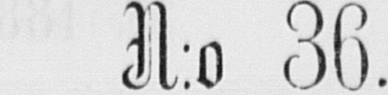N:o 36.
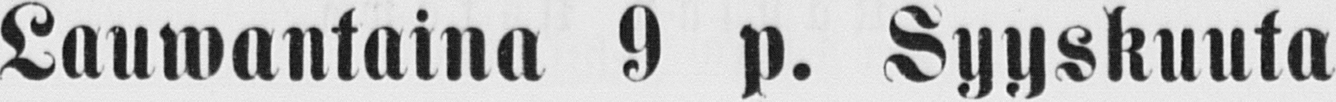Lauwantaina 9 p. Syyskuuta
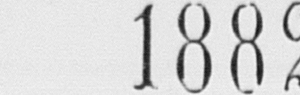1882.
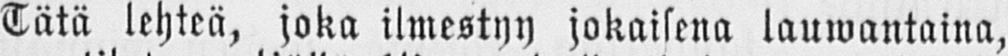Tätä lehteä, joka ilmestyy jokaisena lauwantaina,
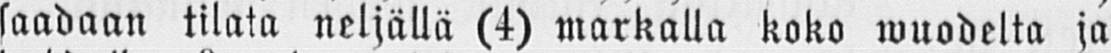saadaan tilata neljällä (4) markalla koko wuodelta ja
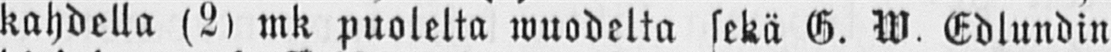kahdella (2) mk puolelta wuodelta sekä G. W Edlundin
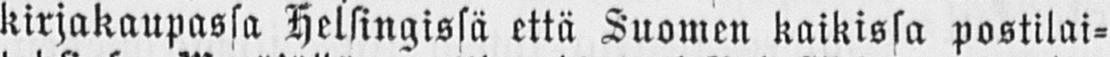kirjakaupassa Helsingissä että Suomen kaikissa postilai-
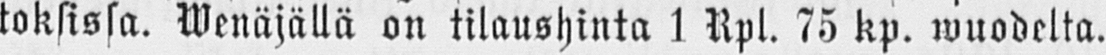toksissa. Wenäjällä on tilaushinta l kpl. 75 kp. wuodelta.
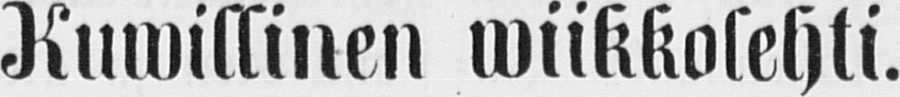Kuwillinen wiikkolehti.
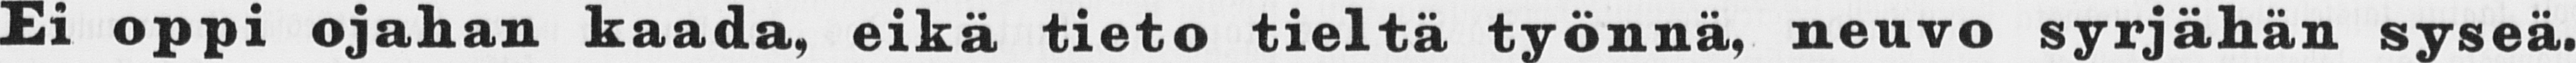Ei oppi ojahan kaada, eikä tieto tieltä työnnä, neuvo syseä.
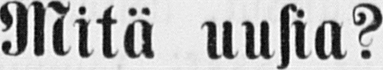Mitä uusia?
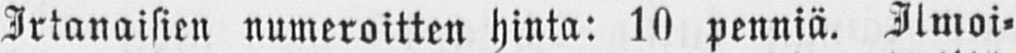Irtanaisien numeroitten hinta: 10 penniä. Ilmoi-
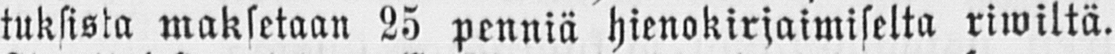tuksista maksetaan 25 penniä hienokirjaimiselta riwiltä.
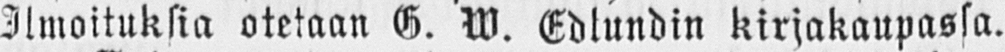Ilmoituksia otetaan G. W. Edlundin kirjakaupassa.
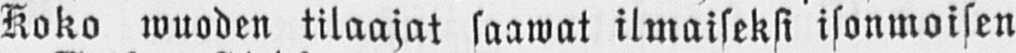Koko wuoden tilaajat saawat ilmaiseksi isonmoisen
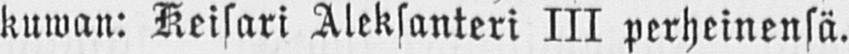kuwan: Keisari Aleksanteri III perheinensä.
